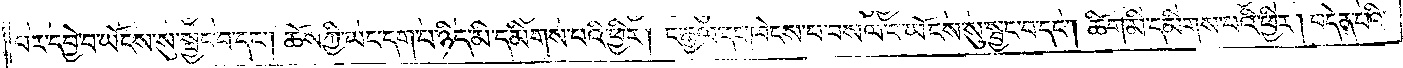པར་དབྱེ་བ་ཡོངས་སུ་སྦྱང་བ་དང༌། ཆོས་ཀྱི་ཡང་དག་པ་ཉིད་མི་དམིགས་པའི་ཕྱིར། ང་རྒྱལ་དང་ཁེངས་པ་བསལ་བ་ཡོངས་སུ་སྦྱང་བ་དང༌། ཚིག་མི་དམིགས་པའི་ཕྱིར། བདེན་པའི་
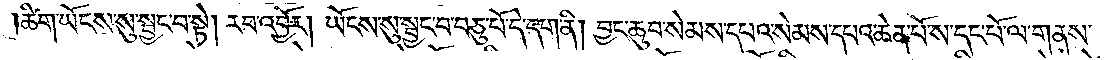ཚིག་ཡོངས་སུ་སྦྱང་བ་སྟེ། རབ་འབྱོར། ཡོངས་སུ་སྦྱང་བ་བཅུ་པོ་དེ་དག་ནི། བྱང་ཆུབ་སེམས་དཔའ་སེམས་དཔའ་ཆེན་པོ་ས་དང་པོ་ལ་གནས་
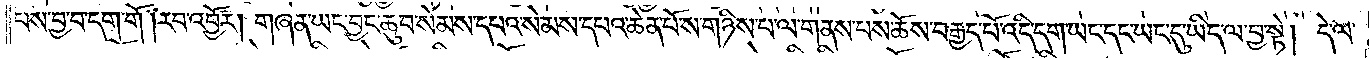པས་བྱ་བ་དག་གོ །རབ་འབྱོར། གཞན་ཡང་བྱང་ཆུབ་སེམས་དཔའ་སེམས་དཔའ་ཆེན་པོ་ས་གཉིས་པ་ལ་གནས་པས་ཆོས་བརྒྱད་པོ་འདི་དག་ཡང་དང་ཡང་དུ་ཡིད་ལ་བྱ་སྟེ། དེ་ལ་
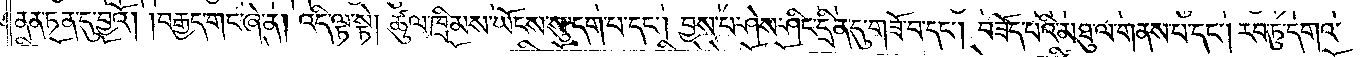ནན་ཏན་དུ་བྱའོ། །བརྒྱད་གང་ཞེ་ན། འདི་ལྟ་སྟེ། ཚུལ་ཁྲིམས་ཡོངས་སུ་དག་པ་དང༌། བྱས་པ་ཤེས་ཤིང་དྲིན་དུ་གཟོ་བ་དང༌། བཟོད་པའི་མཐུ་ལ་གནས་པ་དང༌། རབ་ཏུ་དགའ་
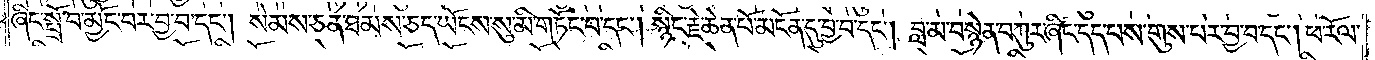ཞིང་སྤྲོ་བ་མྱོང་བར་བྱ་བ་དང༌། སེམས་ཅན་ཐམས་ཅད་ཡོངས་སུ་མི་བཏང་བ་དང༌། སྙིང་རྗེ་ཆེན་པོ་མངོན་དུ་བྱ་བ་དང༌། བླ་མ་བསྙེན་བཀུར་ཞིང་དད་པས་གུས་པར་བྱ་བ་དང༌། ཕ་རོལ་
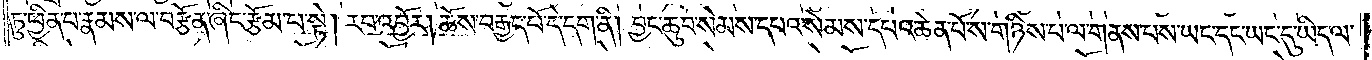ཏུ་ཕྱིན་པ་རྣམས་ལ་བརྩོན་ཞིང་རྩོམ་པ་སྟེ། རབ་འབྱོར། ཆོས་བརྒྱད་པོ་དེ་དག་ནི། བྱང་ཆུབ་སེམས་དཔའ་སེམས་དཔའ་ཆེན་པོ་ས་གཉིས་པ་ལ་གནས་པས་ཡང་དང་ཡང་དུ་ཡིད་ལ་
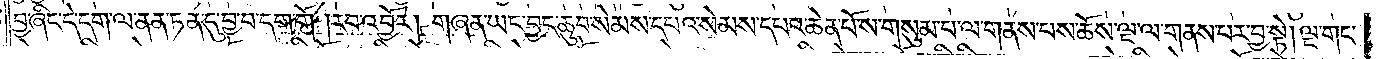བྱ་ཞིང་དེ་དག་ལ་ནན་ཏན་དུ་བྱ་བ་དག་གོ །རབ་འབྱོར། གཞན་ཡང་བྱང་ཆུབ་སེམས་དཔའ་སེམས་དཔའ་ཆེན་པོ་ས་གསུམ་པ་ལ་གནས་པས་ཆོས་ལྔ་ལ་གནས་པར་བྱ་སྟེ། ལྔ་གང་
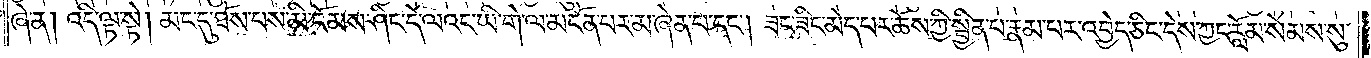ཞེ་ན། འདི་ལྟ་སྟེ། མང་དུ་ཐོས་པས་མི་ངོམས་ཤིང་དེ་ལའང་ཡི་གེ་ལ་མངོན་པར་མ་ཞེན་པ་དང༌། ཟང་ཟིང་མེད་པར་ཆོས་ཀྱི་སྦྱིན་པ་རྣམ་པར་འབྱེད་ཅིང་ངེས་ཀྱང་རློམ་སེམས་སུ་
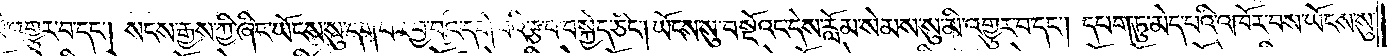མི་འགྱུར་བ་དང༌། སངས་རྒྱས་ཀྱི་ཞིང་ཡོངས་སུ་དག་པར་བྱ་བའི་དགེ་བའི་རྩ་བ་བསྐྱེད་ཅིང༌། ཡོངས་སུ་བསྔོའང་དེས་རློམ་སེམས་སུ་མི་འགྱུར་བ་དང༌། དཔག་ཏུ་མེད་པའི་འཁོར་བས་ཡོངས་སུ་
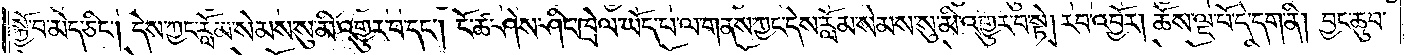སྐྱོ་བ་མེད་ཅིང༌། དེས་ཀྱང་རློམ་སེམས་སུ་མི་འགྱུར་བ་དང༌། ངོ་ཚ་ཤེས་ཤིང་ཁྲེལ་ཡོད་པ་ལ་གནས་ཀྱང་དེས་རློམ་སེམས་སུ་མི་འགྱུར་བ་སྟེ། རབ་འབྱོར། ཆོས་ལྔ་པོ་དེ་དག་ནི། བྱང་ཆུབ་
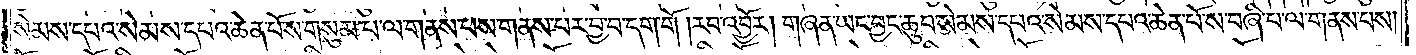སེམས་དཔའ་སེམས་དཔའ་ཆེན་པོས་གསུམ་པ་ལ་གནས་པས་གནས་པར་བྱ་བ་དག་གོ །རབ་འབྱོར། གཞན་ཡང་བྱང་ཆུབ་སེམས་དཔའ་སེམས་དཔའ་ཆེན་པོ་ས་བཞི་པ་ལ་གནས་པས།
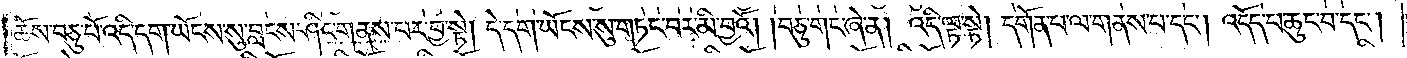ཆོས་བཅུ་པོ་འདི་དག་ཡོངས་སུ་བླངས་ཤིང་གནས་པར་བྱ་སྟེ། དེ་དག་ཡོངས་སུ་བཏང་བར་མི་བྱའོ། །བཅུ་གང་ཞེ་ན། འདི་ལྟ་སྟེ། དགོན་པ་ལ་གནས་པ་དང༌། འདོད་པ་ཆུང་བ་དང༌།
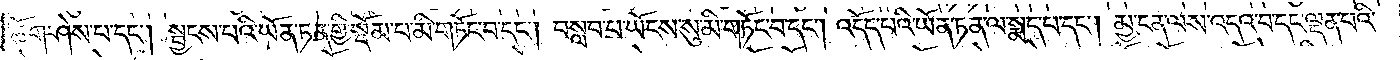ཆོག་ཤེས་པ་དང༌། སྦྱངས་པའི་ཡོན་ཏན་གྱི་སྡོམ་པ་མི་བཏོང་བ་དང༌། བསླབ་པ་ཡོངས་སུ་མི་བཏོང་བ་དང༌། འདོད་པའི་ཡོན་ཏན་ལ་སྨད་པ་དང༌། མྱ་ངན་ལས་འདའ་བ་དང་ལྡན་པའི་
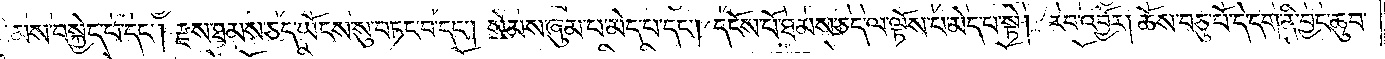སེམས་བསྐྱེད་པ་དང༌། རྫས་ཐམས་ཅད་ཡོངས་སུ་བཏང་བ་དང༌། སེམས་ཞུམ་པ་མེད་པ་དང༌། དངོས་པོ་ཐམས་ཅད་ལ་ལྟོས་པ་མེད་པ་སྟེ། རབ་འབྱོར། ཆོས་བཅུ་པོ་དེ་དག་ནི་བྱང་ཆུབ་
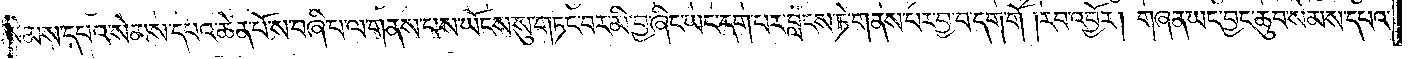སེམས་དཔའ་སེམས་དཔའ་ཆེན་པོ་ས་བཞི་པ་ལ་གནས་པས་ཡོངས་སུ་བཏང་བར་མི་བྱ་ཞིང་ཡང་དག་པར་བླངས་ཏེ་གནས་པར་བྱ་བ་དག་གོ །རབ་འབྱོར། གཞན་ཡང་བྱང་ཆུབ་སེམས་དཔའ་
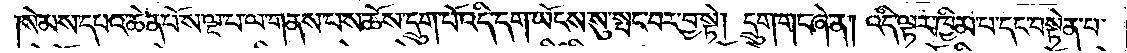སེམས་དཔའ་ཆེན་པོ་ས་ལྔ་པ་ལ་གནས་པས་ཆོས་དྲུག་པོ་འདི་དག་ཡོངས་སུ་སྤང་བར་བྱ་སྟེ། དྲུག་གང་ཞེ་ན། འདི་ལྟར་ཁྱིམ་པ་དང་བསྟེན་པ་
